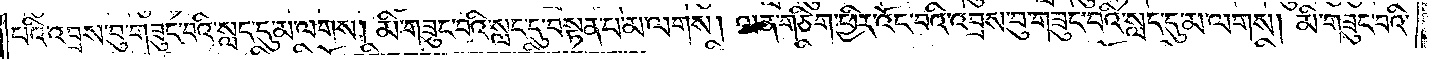པའི་འབྲས་བུ་གཟུང་བའི་སླད་དུ་མ་ལགས། མི་གཟུང་བའི་སླད་དུ་བསྟན་པ་མ་ལགས། ལན་གཅིག་ཕྱིར་འོང་བའི་འབྲས་བུ་གཟུང་བའི་སླད་དུ་མ་ལགས། མི་གཟུང་བའི་
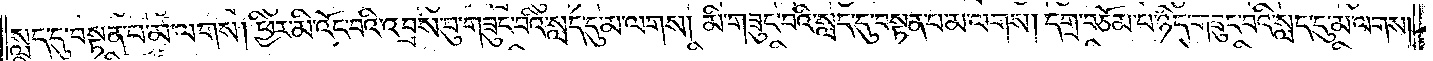སླད་དུ་བསྟན་པ་མ་ལགས། ཕྱིར་མི་འོང་བའི་འབྲས་བུ་གཟུང་བའི་སླད་དུ་མ་ལགས། མི་གཟུང་བའི་སླད་དུ་བསྟན་པ་མ་ལགས། དགྲ་བཅོམ་པ་ཉིད་གཟུང་བའི་སླད་དུ་མ་ལགས།
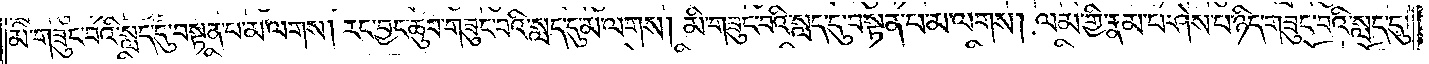མི་གཟུང་བའི་སླད་དུ་བསྟན་པ་མ་ལགས། རང་བྱང་ཆུབ་གཟུང་བའི་སླད་དུ་མ་ལགས། མི་གཟུང་བའི་སླད་དུ་བསྟན་པ་མ་ལགས། ལམ་གྱི་རྣམ་པ་ཤེས་པ་ཉིད་གཟུང་བའི་སླད་དུ་
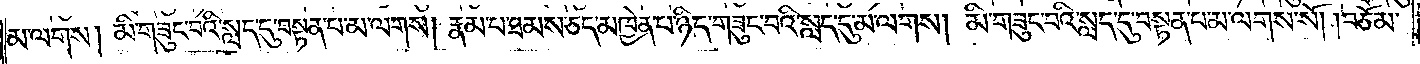མ་ལགས། མི་གཟུང་བའི་སླད་དུ་བསྟན་པ་མ་ལགས༎ རྣམ་པ་ཐམས་ཅད་མཁྱེན་པ་ཉིད་གཟུང་བའི་སླད་དུ་མ་ལགས། མི་གཟུང་བའི་སླད་དུ་བསྟན་པ་མ་ལགས་སོ། །བཅོམ་
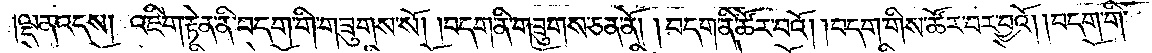ལྡན་འདས། འཇིག་རྟེན་ནི་བདག་གི་གཟུགས་སོ། །བདག་ནི་གཟུགས་ཅན་ནོ། །བདག་ནི་ཚོར་བའོ། །བདག་གིས་ཚོར་བར་བྱའོ། །བདག་གི་
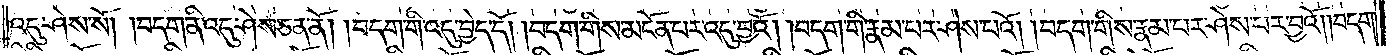འདུ་ཤེས་སོ། །བདག་ནི་འདུ་ཤེས་ཅན་ནོ། །བདག་གི་འདུ་བྱེད་དོ། །བདག་གིས་མངོན་པར་འདུ་བྱའོ། །བདག་གི་རྣམ་པར་ཤེས་པའོ། །བདག་གིས་རྣམ་པར་ཤེས་པར་བྱའོ། །བདག་
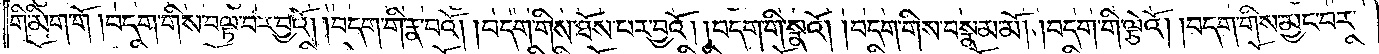གི་མིག་གོ །བདག་གིས་བལྟ་བར་བྱའོ། །བདག་ནི་རྣ་བའོ། །བདག་གིས་ཐོས་པར་བྱའོ། །བདག་གི་སྣའོ། །བདག་གིས་བསྣམ་མོ། །བདག་གི་ལྕེའོ། །བདག་གིས་མྱང་བར་
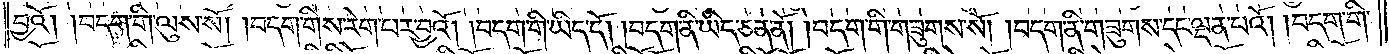བྱའོ། །བདག་གི་ལུས་སོ། །བདག་གིས་རེག་པར་བྱའོ། །བདག་གི་ཡིད་དོ། །བདག་ནི་ཡིད་ཅན་ནོ། །བདག་གི་གཟུགས་སོ། །བདག་ནི་གཟུགས་དང་ལྡན་པའོ། །བདག་གི་
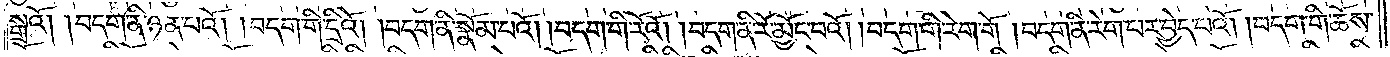སྒྲའོ། །བདག་ནི་ཉན་པའོ། །བདག་གི་དྲིའོ། །བདག་ནི་སྣོམ་པའོ། །བདག་གི་རོའོ། །བདག་ནི་རོ་མྱོང་བའོ། །བདག་གི་རེག་གོ །བདག་ནི་རེག་པར་བྱེད་པའོ། །བདག་གི་ཆོས་
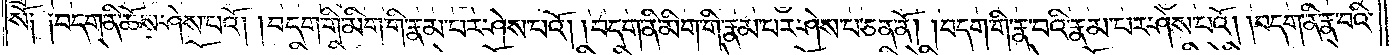སོ། །བདག་ནི་ཆོས་ཤེས་པའོ། །བདག་གི་མིག་གི་རྣམ་པར་ཤེས་པའོ། །བདག་ནི་མིག་གི་རྣམ་པར་ཤེས་པ་ཅན་ནོ། །བདག་གི་རྣ་བའི་རྣམ་པར་ཤེས་པའོ། །བདག་ནི་རྣ་བའི་
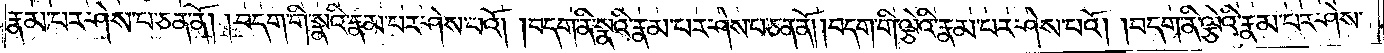རྣམ་པར་ཤེས་པ་ཅན་ནོ། །བདག་གི་སྣའི་རྣམ་པར་ཤེས་པའོ། །བདག་ནི་སྣའི་རྣམ་པར་ཤེས་པ་ཅན་ནོ། །བདག་གི་ལྕེའི་རྣམ་པར་ཤེས་པའོ། །བདག་ནི་ལྕེའི་རྣམ་པར་ཤེས་
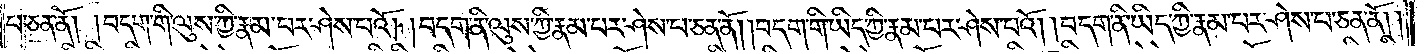པ་ཅན་ནོ། །བདག་གི་ལུས་ཀྱི་རྣམ་པར་ཤེས་པའོ། །བདག་ནི་ལུས་ཀྱི་རྣམ་པར་ཤེས་པ་ཅན་ནོ། །བདག་གི་ཡིད་ཀྱི་རྣམ་པར་ཤེས་པའོ། །བདག་ནི་ཡིད་ཀྱི་རྣམ་པར་ཤེས་པ་ཅན་ནོ། །
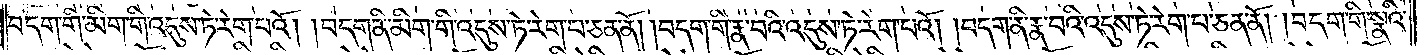བདག་གི་མིག་གི་འདུས་ཏེ་རེག་པའོ། །བདག་ནི་མིག་གི་འདུས་ཏེ་རེག་པ་ཅན་ནོ། །བདག་གི་རྣ་བའི་འདུས་ཏེ་རེག་པའོ། །བདག་ནི་རྣ་བའི་འདུས་ཏེ་རེག་པ་ཅན་ནོ། །བདག་གི་སྣའི་
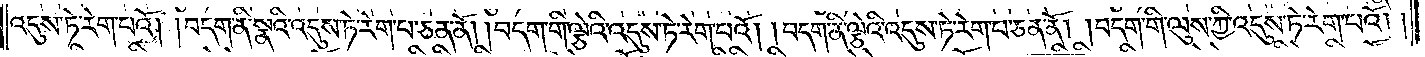འདུས་ཏེ་རེག་པའོ། །བདག་ནི་སྣའི་འདུས་ཏེ་རེག་པ་ཅན་ནོ། །བདག་གི་ལྕེའི་འདུས་ཏེ་རེག་པའོ། །བདག་ནི་ལྕེའི་འདུས་ཏེ་རེག་པ་ཅན་ནོ། །བདག་གི་ལུས་ཀྱི་འདུས་ཏེ་རེག་པའོ། །
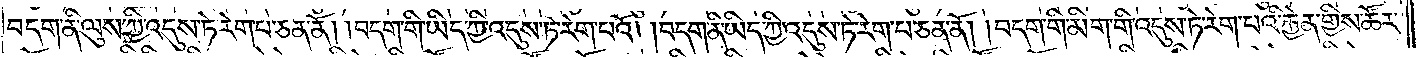བདག་ནི་ལུས་ཀྱི་འདུས་ཏེ་རེག་པ་ཅན་ནོ། །བདག་གི་ཡིད་ཀྱི་འདུས་ཏེ་རེག་པའོ། །བདག་ནི་ཡིད་ཀྱི་འདུས་ཏེ་རེག་པ་ཅན་ནོ། །བདག་གི་མིག་གི་འདུས་ཏེ་རེག་པའི་རྐྱེན་གྱིས་ཚོར་
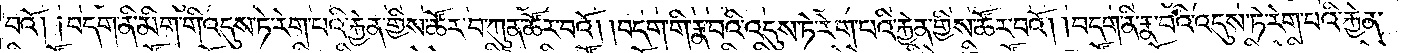བའོ། །བདག་ནི་མིག་གི་འདུས་ཏེ་རེག་པའི་རྐྱེན་གྱིས་ཚོར་བ་ཀུན་ཚོར་བའོ། །བདག་གི་རྣ་བའི་འདུས་ཏེ་རེག་པའི་རྐྱེན་གྱིས་ཚོར་བའོ། །བདག་ནི་རྣ་བའི་འདུས་ཏེ་རེག་པའི་རྐྱེན་
